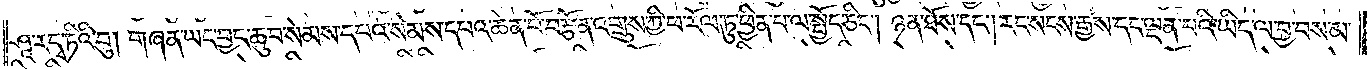ཤཱ་རདྭ་ཏིའི་བུ། གཞན་ཡང་བྱང་ཆུབ་སེམས་དཔའ་སེམས་དཔའ་ཆེན་པོ་བརྩོན་འགྲུས་ཀྱི་ཕ་རོལ་ཏུ་ཕྱིན་པ་ལ་སྤྱོད་ཅིང༌། ཉན་ཐོས་དང༌། རང་སངས་རྒྱས་དང་ལྡན་པའི་ཡིད་ལ་བྱ་བས་མ་
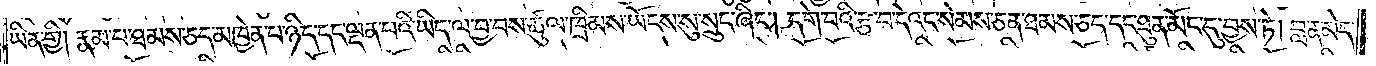ཡིན་གྱི། རྣམ་པ་ཐམས་ཅད་མཁྱེན་པ་ཉིད་དང་ལྡན་པའི་ཡིད་ལ་བྱ་བས་ཚུལ་ཁྲིམས་ཡོངས་སུ་སྲུང་ཞིང༌། དགེ་བའི་རྩ་བ་དེའང་སེམས་ཅན་ཐམས་ཅད་དང་ཐུན་མོང་དུ་བྱས་ཏེ། བླ་ན་མེད་
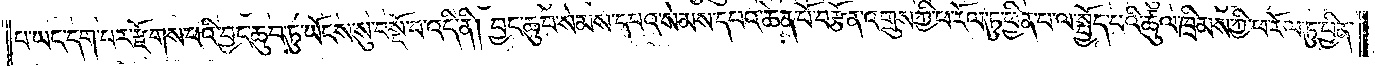པ་ཡང་དག་པར་རྫོགས་པའི་བྱང་ཆུབ་ཏུ་ཡོངས་སུ་བསྔོ་བ་འདི་ནི། བྱང་ཆུབ་སེམས་དཔའ་སེམས་དཔའ་ཆེན་པོ་བརྩོན་འགྲུས་ཀྱི་ཕ་རོལ་ཏུ་ཕྱིན་པ་ལ་སྤྱོད་པའི་ཚུལ་ཁྲིམས་ཀྱི་ཕ་རོལ་ཏུ་ཕྱིན་
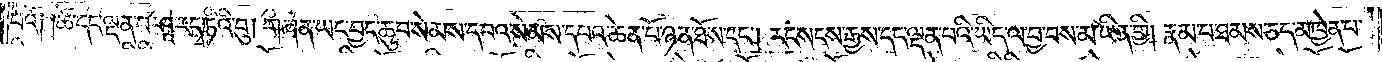པའོ། །ཚེ་དང་ལྡན་པ་ཤཱ་རདྭ་ཏིའི་བུ། གཞན་ཡང་བྱང་ཆུབ་སེམས་དཔའ་སེམས་དཔའ་ཆེན་པོ་ཉན་ཐོས་དང༌། རང་སངས་རྒྱས་དང་ལྡན་པའི་ཡིད་ལ་བྱ་བས་མ་ཡིན་གྱི། རྣམ་པ་ཐམས་ཅད་མཁྱེན་པ་
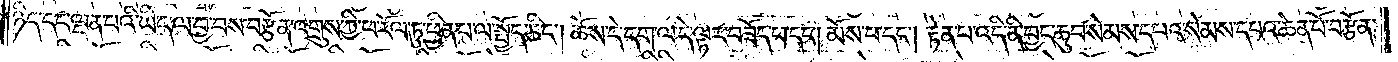ཉིད་དང་ལྡན་པའི་ཡིད་ལ་བྱ་བས་བརྩོན་འགྲུས་ཀྱི་ཕ་རོལ་ཏུ་ཕྱིན་པ་ལ་སྤྱོད་ཅིང༌། ཆོས་དེ་དག་ལ་དེ་ལྟར་བཟོད་པ་དང༌། མོས་པ་དང༌། རྟེན་པ་འདི་ནི་བྱང་ཆུབ་སེམས་དཔའ་སེམས་དཔའ་ཆེན་པོ་བརྩོན་
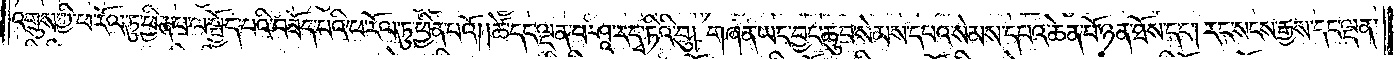འགྲུས་ཀྱི་ཕ་རོལ་ཏུ་ཕྱིན་པ་ལ་སྤྱོད་པའི་བཟོད་པའི་ཕ་རོལ་ཏུ་ཕྱིན་པའོ། །ཚེ་དང་ལྡན་པ་ཤཱ་རདྭ་ཏིའི་བུ། གཞན་ཡང་བྱང་ཆུབ་སེམས་དཔའ་སེམས་དཔའ་ཆེན་པོ་ཉན་ཐོས་དང༌། རང་སངས་རྒྱས་དང་ལྡན་
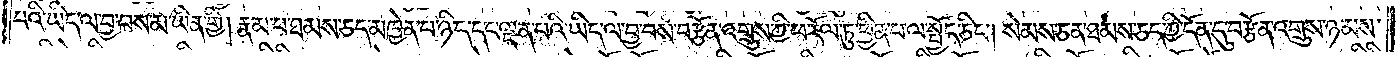པའི་ཡིད་ལ་བྱ་བས་མ་ཡིན་གྱི། རྣམ་པ་ཐམས་ཅད་མཁྱེན་པ་ཉིད་དང་ལྡན་པའི་ཡིད་ལ་བྱ་བས་བརྩོན་འགྲུས་ཀྱི་ཕ་རོལ་ཏུ་ཕྱིན་པ་ལ་སྤྱོད་ཅིང༌། སེམས་ཅན་ཐམས་ཅད་ཀྱི་དོན་དུ་བརྩོན་འགྲུས་ཉམས་
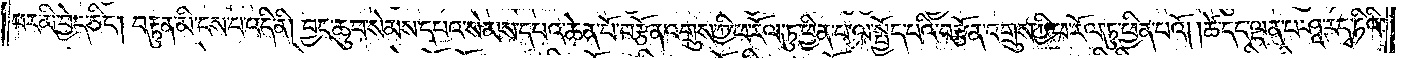པར་མི་བྱེད་ཅིང༌། བསྟུན་མི་ངས་པ་འདི་ནི། བྱང་ཆུབ་སེམས་དཔའ་སེམས་དཔའ་ཆེན་པོ་བརྩོན་འགྲུས་ཀྱི་ཕ་རོལ་ཏུ་ཕྱིན་པ་ལ་སྤྱོད་པའི་བརྩོན་འགྲུས་ཀྱི་ཕ་རོལ་ཏུ་ཕྱིན་པའོ། །ཚེ་དང་ལྡན་པ་ཤཱ་རདྭ་ཏིའི་
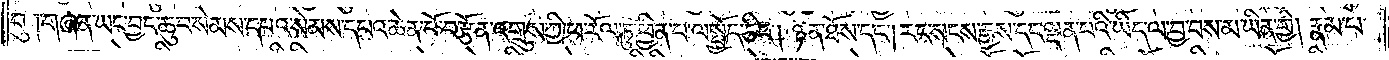བུ། གཞན་ཡང་བྱང་ཆུབ་སེམས་དཔའ་སེམས་དཔའ་ཆེན་པོ་བརྩོན་འགྲུས་ཀྱི་ཕ་རོལ་ཏུ་ཕྱིན་པ་ལ་སྤྱོད་ཅིང༌། ཉན་ཐོས་དང༌། རང་སངས་རྒྱས་དང་ལྡན་པའི་ཡིད་ལ་བྱ་བས་མ་ཡིན་གྱི། རྣམ་པ་
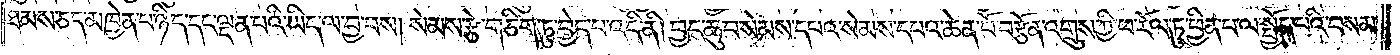ཐམས་ཅད་མཁྱེན་པ་ཉིད་དང་ལྡན་པའི་ཡིད་ལ་བྱ་བས། སེམས་རྩེ་གཅིག་ཏུ་བྱེད་པ་འདི་ནི། བྱང་ཆུབ་སེམས་དཔའ་སེམས་དཔའ་ཆེན་པོ་བརྩོན་འགྲུས་ཀྱི་ཕ་རོལ་ཏུ་ཕྱིན་པ་ལ་སྤྱོད་པའི་བསམ་
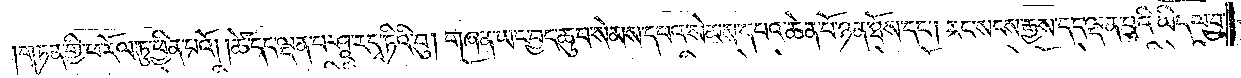གཏན་གྱི་ཕ་རོལ་ཏུ་ཕྱིན་པའོ། །ཚེ་དང་ལྡན་པ་ཤཱ་རདྭ་ཏིའི་བུ། གཞན་ཡང་བྱང་ཆུབ་སེམས་དཔའ་སེམས་དཔའ་ཆེན་པོ་ཉན་ཐོས་དང༌། རང་སངས་རྒྱས་དང་ལྡན་པའི་ཡིད་ལ་བྱ་
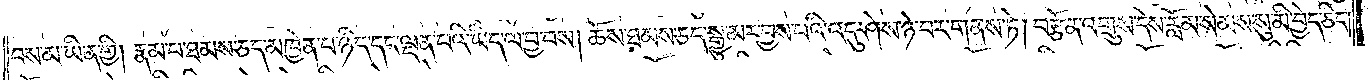བས་མ་ཡིན་གྱི། རྣམ་པ་ཐམས་ཅད་མཁྱེན་པ་ཉིད་དང་ལྡན་པའི་ཡིད་ལ་བྱ་བས། ཆོས་ཐམས་ཅད་སྒྱུ་མར་བྱས་པའི་འདུ་ཤེས་ཉེ་བར་གནས་ཏེ། བརྩོན་འགྲུས་དེས་རློམ་སེམས་སུ་མི་བྱེད་ཅིང༌།
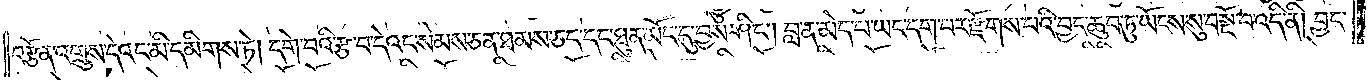བརྩོན་འགྲུས་དེའང་མི་དམིགས་ཏེ། དགེ་བའི་རྩ་བ་དེའང་སེམས་ཅན་ཐམས་ཅད་དང་ཐུན་མོང་དུ་བྱས་ཤིང༌། བླ་ན་མེད་པ་ཡང་དག་པར་རྫོགས་པའི་བྱང་ཆུབ་ཏུ་ཡོངས་སུ་བསྔོ་བ་འདི་ནི། བྱང་
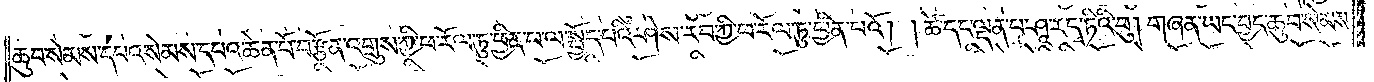ཆུབ་སེམས་དཔའ་སེམས་དཔའ་ཆེན་པོ་བརྩོན་འགྲུས་ཀྱི་ཕ་རོལ་ཏུ་ཕྱིན་པ་ལ་སྤྱོད་པའི་ཤེས་རབ་ཀྱི་ཕ་རོལ་ཏུ་ཕྱིན་པའོ། །ཚེ་དང་ལྡན་པ་ཤཱ་རདྭ་ཏིའི་བུ། གཞན་ཡང་བྱང་ཆུབ་སེམས་
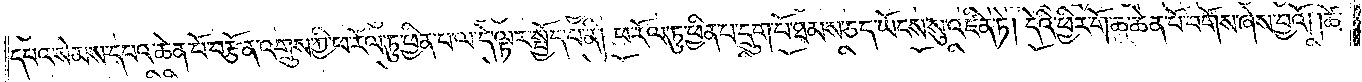དཔའ་སེམས་དཔའ་ཆེན་པོ་བརྩོན་འགྲུས་ཀྱི་ཕ་རོལ་ཏུ་ཕྱིན་པ་ལ་དེ་ལྟར་སྤྱོད་པ་ནི། ཕ་རོལ་ཏུ་ཕྱིན་པ་དྲུག་པོ་ཐམས་ཅད་ཡོངས་སུ་འཛིན་ཏེ། དེའི་ཕྱིར་གོ་ཆ་ཆེན་པོ་བགོས་ཞེས་བྱའོ། །ཚེ་
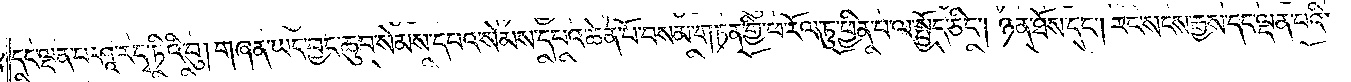དང་ལྡན་པ་ཤཱ་རདྭ་ཏིའི་བུ། གཞན་ཡང་བྱང་ཆུབ་སེམས་དཔའ་སེམས་དཔའ་ཆེན་པོ་བསམ་གཏན་གྱི་ཕ་རོལ་ཏུ་ཕྱིན་པ་ལ་སྤྱོད་ཅིང༌། ཉན་ཐོས་དང༌། རང་སངས་རྒྱས་དང་ལྡན་པའི་
